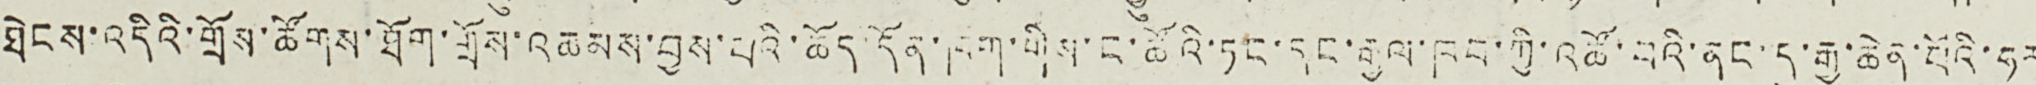ཐེངས་འདིའི་གྲོས་ཚོགས་ཐོག་གྲོས་འཆམས་བྱས་པའི་ཆོད་དོན་ཁག་གིས་ང་ཚོའི་ཏང་དང་རྒྱལ་ཁབ་ཀྱི་འཚོ་བའི་ནང་དུ་རྒྱ་ཆེན་པོའི་ཧུར
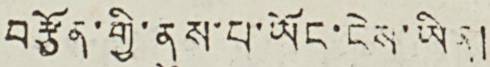བརྩོན་གྱི་ནུས་པ་ཡོང་ངེས་ཡིན།
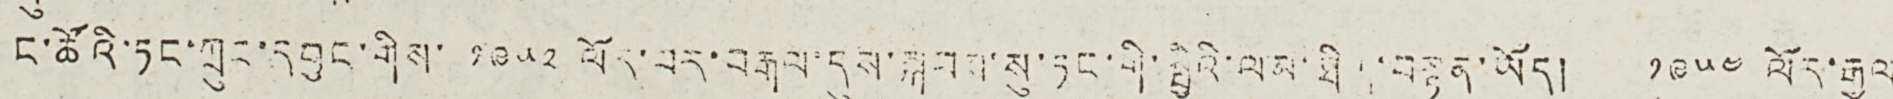ང་ཚོའི་ཏང་ཀྲུང་དབྱང་གིས་ ༡༩༥༢ ལོར་བར་བརྒལ་དུས་སྐབས་སུ་ཏང་གི་སྤྱིའི་ལམ་ཐིག་བསྟན་ཡོད། ༡༩༥༤ ལོར་རྒྱལ་
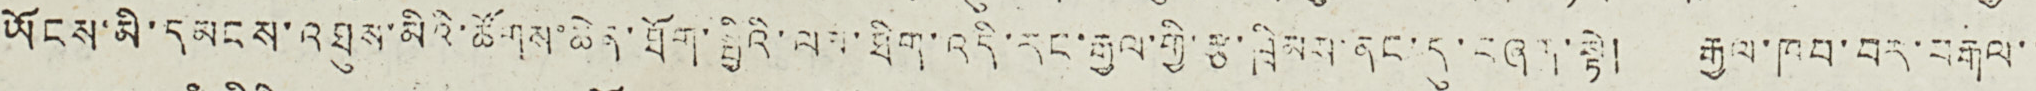ཡོངས་མི་དམངས་འཐུས་མིའི་ཚོགས་ཆེན་ཐོག་སྤྱིའི་ལམ་ཐིག་འདི་རང་རྒྱལ་གྱི་རྩ་ཁྲིམས་ནང་དུ་བཞག་སྟེ། རྒྱལ་ཁབ་བར་བརྒལ་་
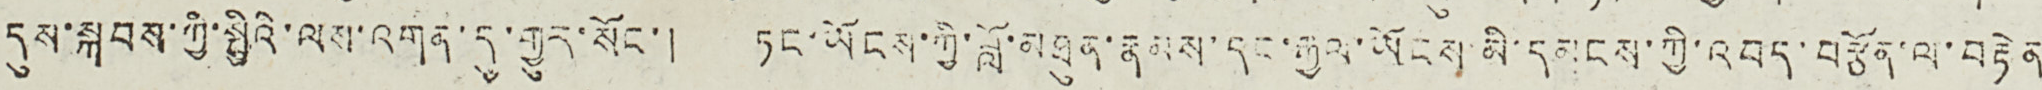དུས་སྐབས་ཀྱི་སྤྱིའི་ལས་འགན་དུ་རྒྱུར་སོང་། ཏང་ཡོངས་ཀྱི་བློ་མཐུན་རྣམས་དང་རྒྱལ་ཡོངས་མི་དམངས་ཀྱི་འབད་བརྩོན་ལ་བརྟེན
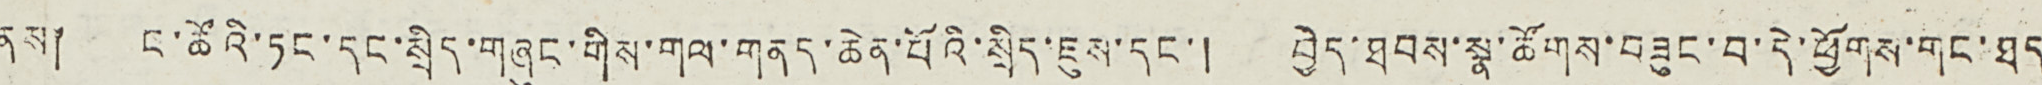ནས། ང་ཚོའི་ཏང་དང་སྲིད་གཞུང་གིས་གལ་གནད་ཆེན་པོའི་སྲིད་ཇུས་དང་། བྱེད་ཐབས་སྣ་ཚོགས་བཟུང་བ་དེ་ཕྱོགས་གང་ཐད
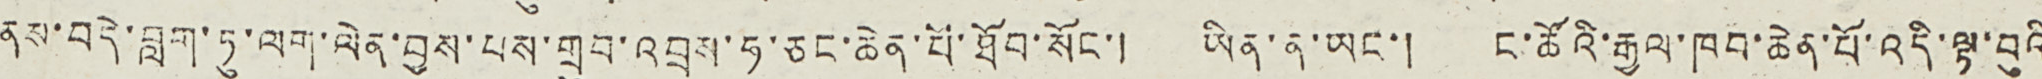ནས་བདེ་བླག་ཏུ་ལག་ལེན་བྱས་པས་གྲུབ་འབྲས་ཧ་ཅང་ཆེན་པོ་ཐོབ་སོང་། ཡིན་ན་ཡང་། ང་ཚོའི་རྒྱལ་ཁབ་ཆེན་པོ་འདི་ལྟ་བུའི
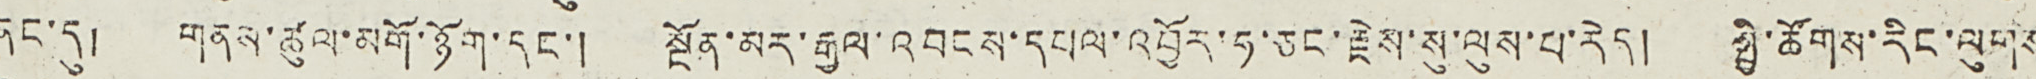ནང་དུ། གནས་ཚུལ་མགོ་ཉོག་དང་། སྔོན་མར་རྒྱལ་འབངས་དཔལ་འབྱོར་ཧ་ཅང་རྗེས་སུ་ལུས་པ་རེད། སྤྱི་ཚོགས་རིང་ལུགས
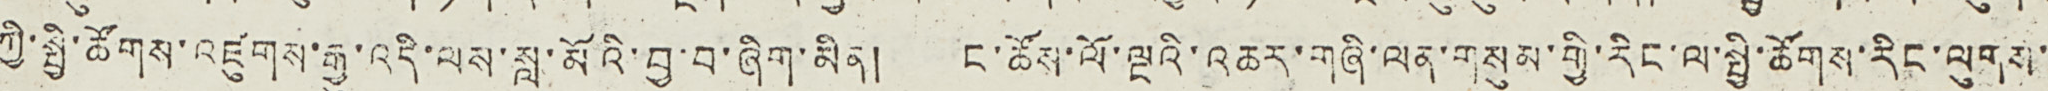ཀྱི་སྤྱི་ཚོགས་འཛུགས་རྒྱུ་འདི་ལས་སླ་མོའི་བྱ་བ་ཞིག་མིན། ང་ཚོས་ལོ་ལྔའི་འཆར་གཞི་ལན་གསུམ་གྱི་རིང་ལ་སྤྱི་ཚོགས་རིང་ལུགས་
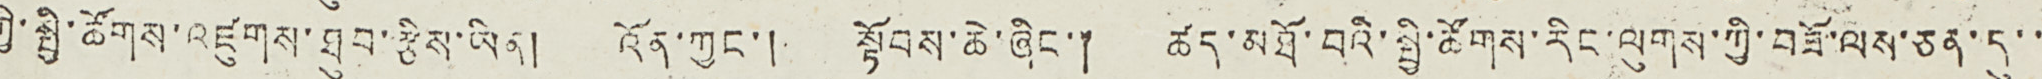ཀྱི་སྤྱི་ཚོགས་འཛུགས་ཐུབ་རྩིས་ཡིན། འོན་ཀྱང་། སྟོབས་ཆེ་ཞིང་། ཚད་མཐོ་བའི་སྤྱི་ཚོགས་རིང་ལུགས་ཀྱི་བཟོ་ལས་ཅན་དུ་་
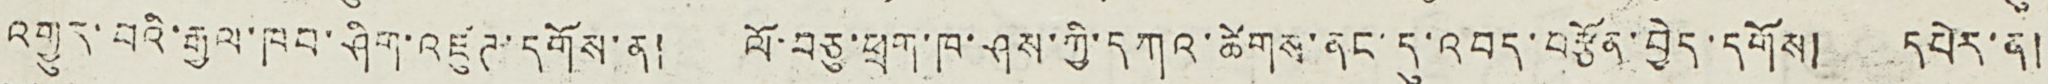འགྱུར་བའི་རྒྱལ་ཁབ་ཤིག་འཛུཊ་དགོས་ན། ལོ་བཅུ་ཕྲག་ཁ་ཤས་ཀྱི་དཀའ་ཚེགས་ནང་དུ་འབད་བརྩོན་བྱེད་དགོས། དཔེར་ན།
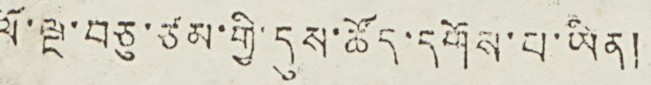ལོ་ལྔ་བཅུ་ཙམ་གྱི་དུས་ཚོད་དགོས་པ་ཡིན།
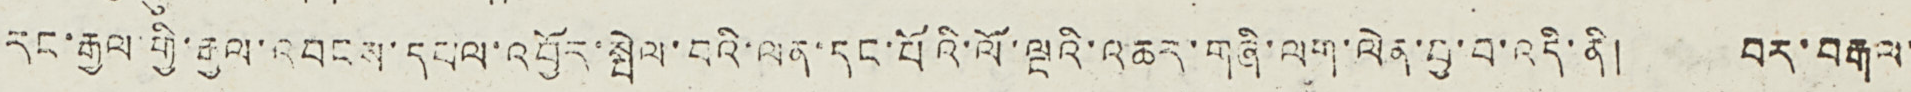རང་རྒྱལ་གྱི་རྒྱལ་འབངས་དཔལ་འབྱོར་སྤེལ་བའི་ལན་དང་པོའི་ལོ་ལྔའི་འཆར་གཞི་ལག་ལེན་བྱ་བ་འདི་ནི། བར་བརྒལ་
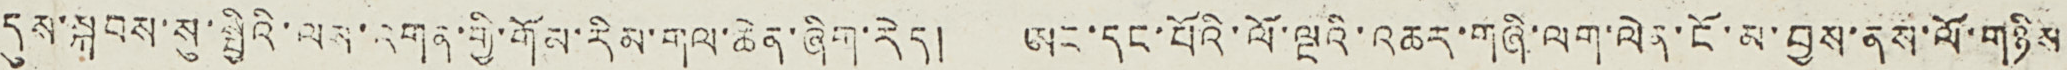དུས་སྐབས་སུ་སྤྱིའི་ལས་འགན་གྱི་གོམ་རིམ་གལ་ཆེན་ཞིག་རེད། ཨང་དང་པོའི་ལོ་ལྔའི་འཆར་གཞི་ལག་ལེན་ངོ་མ་བྱས་ནས་ལོ་གཉིས
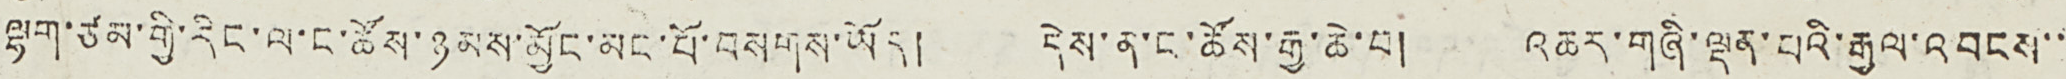ལྷག་ཙམ་གྱི་རིང་ལ་ང་ཚོས་ཉམས་མྱོང་མང་པོ་བསགས་ཡོད། དེས་ན་ང་ཚོས་རྒྱ་ཆེ་བ། འཆར་གཞི་ལྡན་པའི་རྒྱལ་འབངས་་
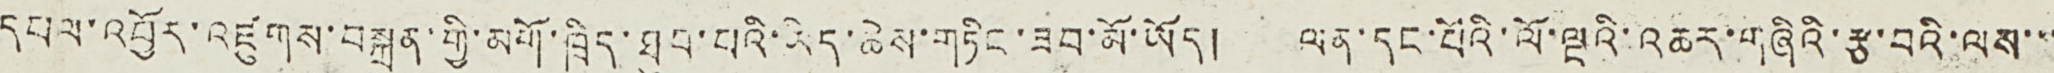དཔལ་འབྱོར་འཛུགས་བསྐྲུན་གྱི་མགོ་ཁྲིད་ཐུབ་པའི་ཡིད་ཆེས་གཏིང་ཟབ་མོ་ཡོད། ལན་དང་པོའི་ལོ་ལྔའི་འཆར་གཞིའི་རྩ་བའི་ལས་་་
